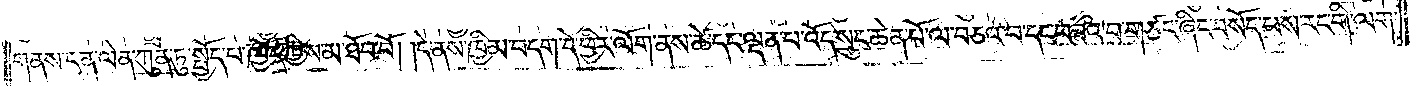གནས་ངན་ལེན་ཀུན་ཏུ་སྤྱོད་པ་ཁྱོད་ཀྱིས་མ་ཐོབ་བོ། །དེ་ནས་ཁྱིམ་བདག་དེ་ཕྱིར་ལོག་ནས་ཚེ་དང་ལྡན་པ་འོད་སྲུང་ཆེན་པོ་ལ་བཅའ་བ་དང་བཟའ་བ་གཙང་ཞིང་བསོད་པས་རང་གི་ལག་
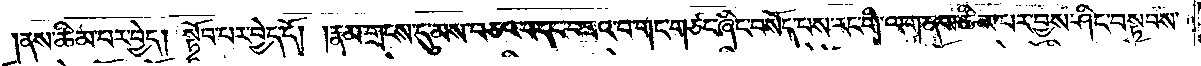ནས་ཚིམ་པར་བྱེད། སྟོབ་པར་བྱེད་དོ། །རྣམ་གྲངས་དུ་མས་བཅའ་བ་དང་བཟའ་བ་གང་གཙང་ཞིང་བསོད་པས་རང་གི་ལག་ནས་ཚིམ་པར་བྱས་ཤིང་བསྟབས་
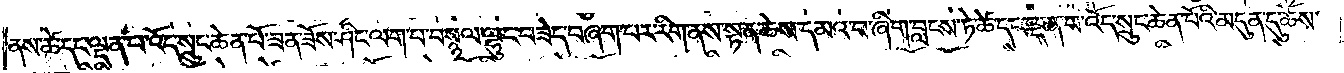ནས་ཚེ་དང་ལྡན་པ་འོད་སྲུང་ཆེན་པོ་ཟན་ཟོས་ཤིང་ལག་པ་བསྙལ་ལྷུང་བཟེད་བཞག་པར་རིག་ནས་སྟན་ཆེས་དམའ་བ་ཞིག་བླངས་ཏེ་ཚེ་དང་ལྡན་པ་འོད་སྲུང་ཆེན་པོའི་མདུན་དུ་ཆོས་
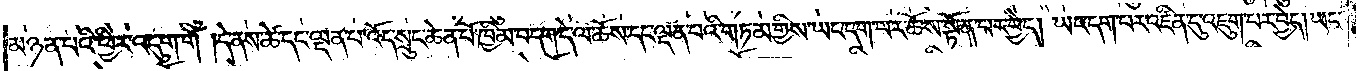མཉན་པའི་ཕྱིར་འདུག་གོ །དེ་ནས་ཚེ་དང་ལྡན་པ་འོད་སྲུང་ཆེན་པོ་ཁྱིམ་བདག་དེ་ལ་ཆོས་དང་ལྡན་པའི་གཏམ་གྱིས་ཡང་དག་པར་ཆོས་སྟོན་པར་བྱེད། ཡང་དག་པར་འཛིན་དུ་འཇུག་པར་བྱེད། ཡང་
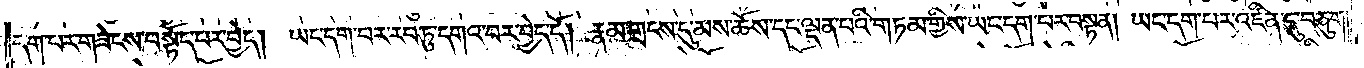དག་པར་གཟེངས་བསྟོད་པར་བྱེད། ཡང་དག་པར་རབ་ཏུ་དགའ་བར་བྱེད་དོ། རྣམ་གྲངས་དུ་མས་ཆོས་དང་ལྡན་པའི་གཏམ་གྱིས་ཡང་དག་པར་བསྟན། ཡང་དག་པར་འཛིན་དུ་བཅུག།
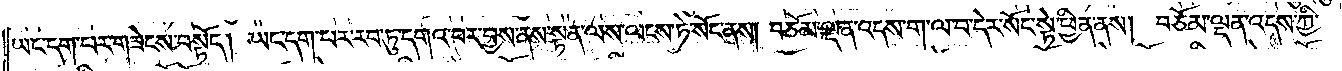ཡང་དག་པར་གཟེངས་བསྟོད། ཡང་དག་པར་རབ་ཏུ་དགའ་བར་བྱས་ནས་སྟན་ལས་ལངས་ཏེ་སོང་ནས། བཅོམ་ལྡན་འདས་ག་ལ་བ་དེར་སོང་སྟེ་ཕྱིན་ནས། བཅོམ་ལྡན་འདས་ཀྱི་
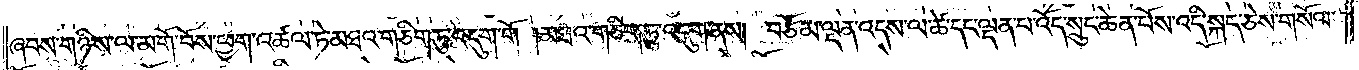ཞབས་གཉིས་ལ་མགོ་བོས་ཕྱག་འཚལ་ཏེ་མཐའ་གཅིག་ཏུ་འདུག་གོ །མཐའ་གཅིག་ཏུ་འདུག་ནས། བཅོམ་ལྡན་འདས་ལ་ཚེ་དང་ལྡན་པ་འོད་སྲུང་ཆེན་པོས་འདི་སྐད་ཅེས་གསོལ་
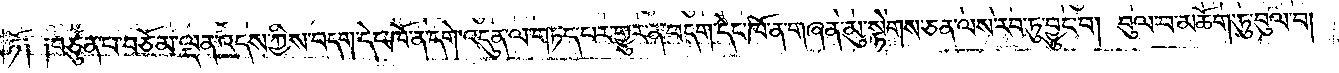ཏོ༑ ༑བཙུན་པ་བཅོམ་ལྡན་འདས་ཀྱིས་བདག་དེང་ཁོ་ན་དགེ་འདུན་ལ་གཏད་པར་གྱུར་ན་བདག་དེང་ཁོ་ན་གཞན་མུ་སྟེགས་ཅན་ལས་རབ་ཏུ་བྱུང་བ། བུལ་བ་མཆོག་ཏུ་བུལ་བ།
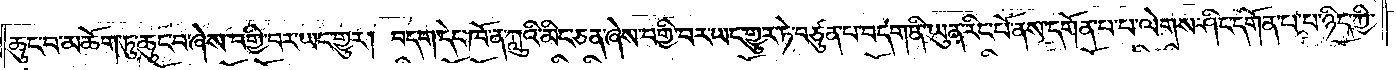ཆུང་བ་མཆོག་ཏུ་ཆུང་བ་ཞེས་བགྱི་བར་ཡང་གྱུར། བདག་དེང་ཁོ་ན་ཀླུའི་མིང་ཅན་ཞེས་བགྱི་བར་ཡང་གྱུར་ཏེ་བཙུན་པ་བདག་ནི་ཡུན་རིང་པོ་ནས་དགོན་པ་པ་ལེགས་ཤིང་དགོན་པ་པ་ཉིད་ཀྱི་
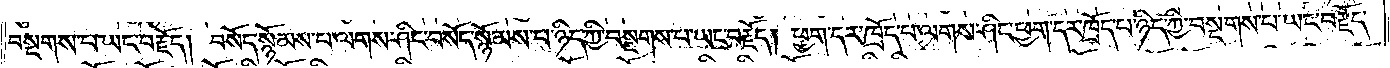བསྔགས་པ་ཡང་བརྗོད། བསོད་སྙོམས་པ་ལགས་ཤིང་བསོད་སྙོམས་པ་ཉིད་ཀྱི་བསྔགས་པ་ཡང་བརྗོད། ཕྱག་དར་ཁྲོད་པ་ལགས་ཤིང་ཕྱག་དར་ཁྲོད་པ་ཉིད་ཀྱི་བསྔགས་པ་ཡང་བརྗོད་
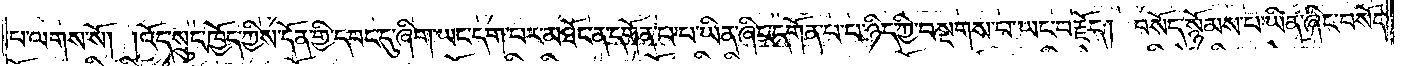པ་ལགས་སོ། །འོད་སྲུང་ཁྱོད་ཀྱིས་དོན་གྱི་དབང་དུ་ཞིག་ཡང་དག་པར་མཐོང་ན་དགོན་པ་པ་ཡིན་ཞིང་དགོན་པ་པ་ཉིད་ཀྱི་བསྔགས་པ་ཡང་བརྗོད། བསོད་སྙོམས་པ་ཡིན་ཞིང་བསོད་
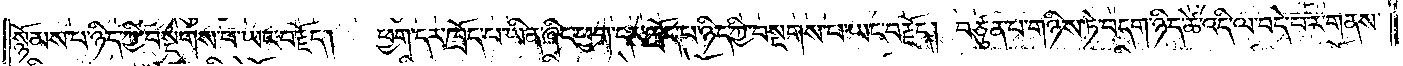སྙོམས་པ་ཉིད་ཀྱི་བསྔགས་པ་ཡང་བརྗོད། ཕྱག་དར་ཁྲོད་པ་ཡིན་ཞིང་ཕྱག་དར་ཁྲོད་པ་ཉིད་ཀྱི་བསྔགས་པ་ཡང་བརྗོད། བཙུན་པ་གཉིས་ཏེ་བདག་ཉིད་ཚེ་འདི་ལ་བདེ་བར་གནས་
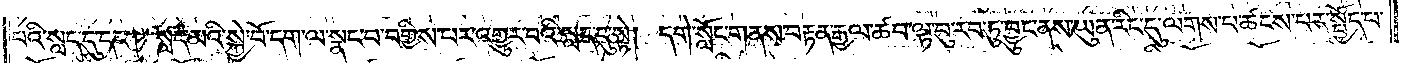པའི་སླད་དུ་དང༌། སླད་མའི་སྐྱེ་བོ་དག་ལ་སྣང་བ་བགྱིས་པར་འགྱུར་བའི་སླད་དུ་སྟེ། དགེ་སློང་གནས་བརྟན་རྒྱལ་ཚབ་ལྟ་བུ་རབ་ཏུ་བྱུང་ནས་ཡུན་རིང་དུ་ལགས་པ་ཚངས་པར་སྤྱོད་པ་
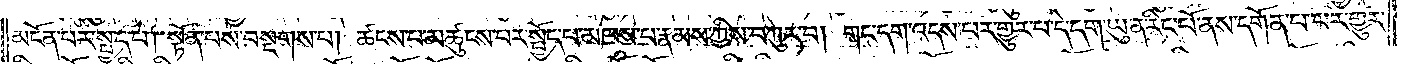མངོན་པར་སྤྱད་པ། སྟོན་པས་བསྔགས་པ། ཚངས་པ་མཚུངས་པར་སྤྱོད་པ་མཁས་པ་རྣམས་ཀྱིས་བཀུར་བ། གང་དག་འདས་པར་གྱུར་པ་དེ་དག་ཡུན་རིང་པོ་ནས་དགོན་པ་པར་གྱུར་
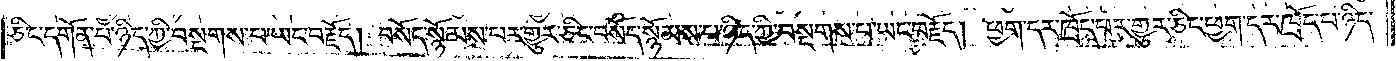ཅིང་དགོན་པ་ཉིད་ཀྱི་བསྔགས་པ་ཡང་བརྗོད། བསོད་སྙོམས་པར་གྱུར་ཅིང་བསོད་སྙོམས་པ་ཉིད་ཀྱི་བསྔགས་པ་ཡང་བརྗོད། ཕྱག་དར་ཁྲོད་པར་གྱུར་ཅིང་ཕྱག་དར་ཁྲོད་པ་ཉིད་
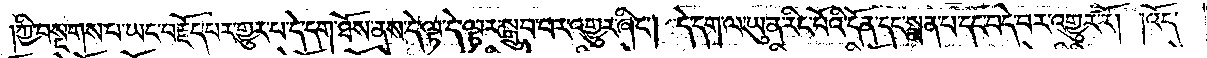ཀྱི་བསྔགས་པ་ཡང་བརྗོད་པར་གྱུར་པ་དེ་དག་ཐོས་ནས་དེ་ལྟ་དེ་ལྟར་སྒྲུབ་པར་འགྱུར་ཞིང༌། དེ་དག་ལ་ཡུན་རིང་པོའི་དོན་དང་སྨན་པ་དང་བདེ་བར་འགྱུར་རོ། །འོད་
